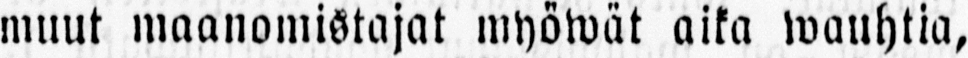muut maanomistajat myöwät aika wauhtia,
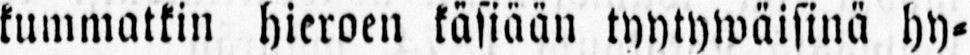kummatkin hieroen käsiään tyytywäisinä hy-
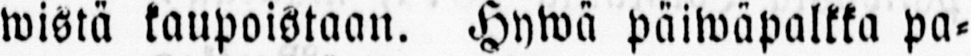wistä kaupoistaan. Hywä päiwäpalkka pa-
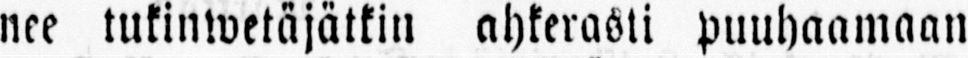nee tukinwetäjätkin ahkerasti puuhaamaan
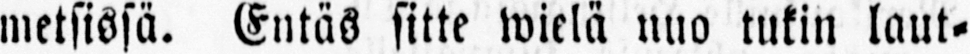metsissä. Entäs sitte wielä nuo tukin laut-
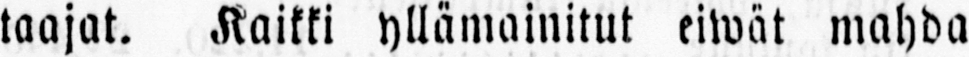taajat. Kaikki yllämainitut eiwät mahda
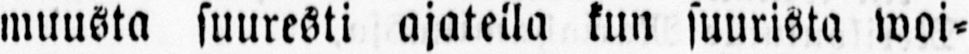muusta suuresti ajateila kun suurista woi-
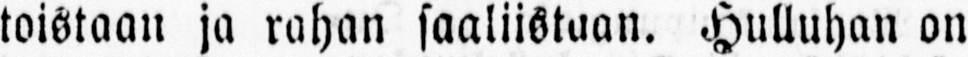toistaan ja rahan saaliistaan. Hulluhan on
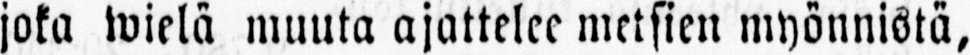joka wielä muuta ajattelee metsien myönnistä,
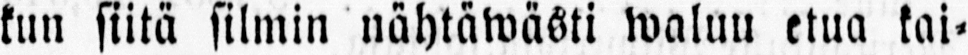kun siitä silmin nähtäwästi waluu etua kai-
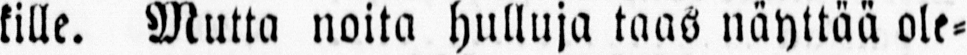kille. Mutta noita hulluja taas näyttää ole-
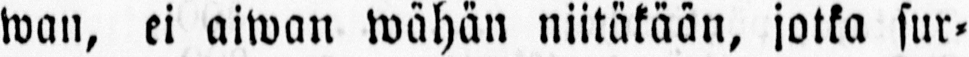wan, ei aiwan wähän niitäkään, jotka sur-
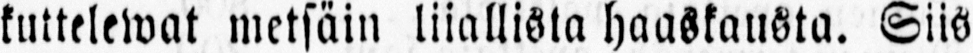kuttelewat metsäin liiallista haaskausta. Siis
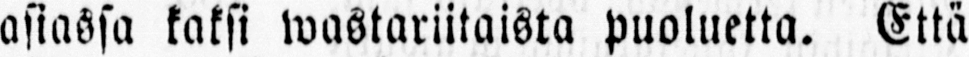asiassa kaksi wastariitaista puoluetta. Että
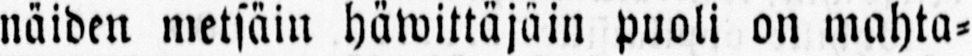näiden metsäin häwittäjäin puoli on mahta-
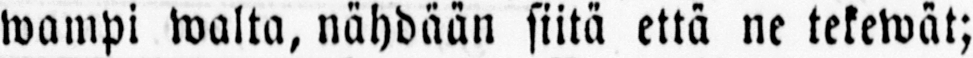wampi walta, nähdään siitä että ne tekewät;
